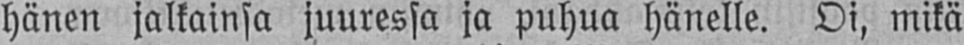hänen jalkainsa juuressa ja puhua hänelle. Oi, mikä
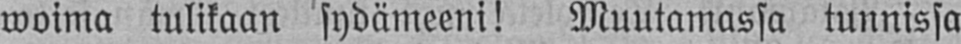woima tulikaan sydämeeni! Muutamassa tunnissa
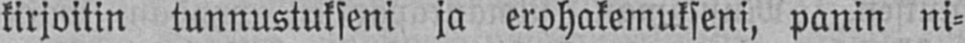kirjoitin tunnustukseni ja erohakemukseni, panin ni-
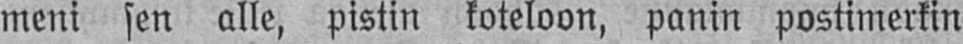meni sen alle, pistin koteloon, panin postimerkin
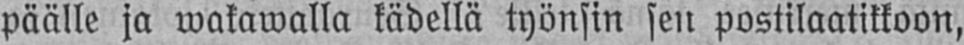päälle ja wakawalla kädellä työnsin sen postilaatikkoon,
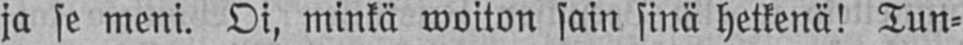ja se meni. Oi, minkä woiton sain sinä hetkenä! Tun-
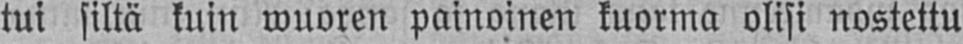tui siltä kuin wuoren painoinen kuorma olisi nostettu
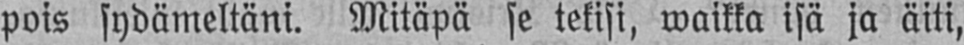pois sydämeltäni. Mitäpä se tekisi, waikka isä ja äiti,
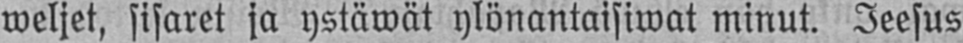weljet, sisaret ja ystäwät ylönantaisiwat minut. Jeesus
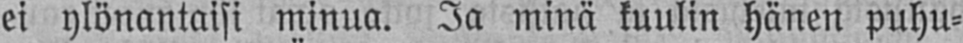ei ylönantaisi minua. Ja minä kuulin hänen puhu-
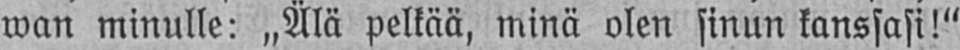wan minulle: „Älä pelkää, minä olen sinun kanssasi!"
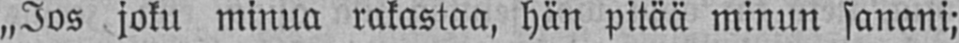„Jos joku minua rakastaa, hän pitää minun sanani;
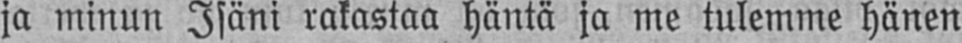ja minun Isäni rakastaa häntä ja me tulemme hänen
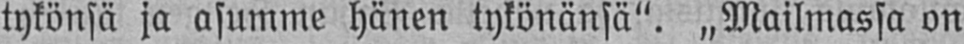tykönsä ja asumme hänen tykönänsä". „Mailmassa on
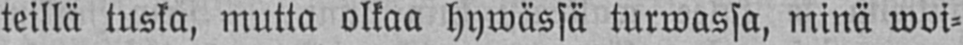teillä tuska, mutta olkaa hywässä turwassa, minä woi-
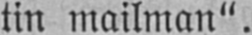tin mailman".
